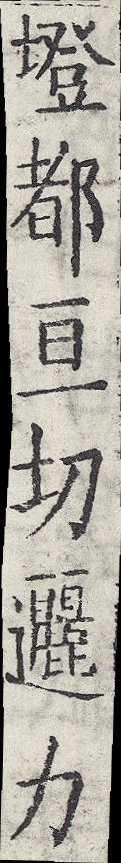墱都亘切邐力
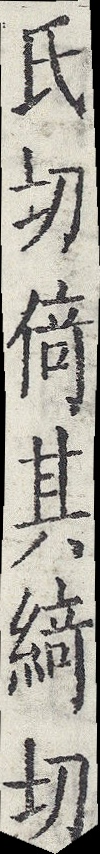氏切倚其綺切
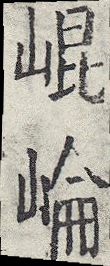崐崘
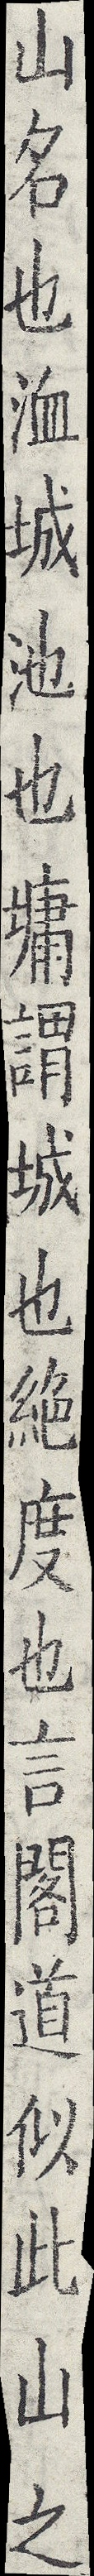山名也洫城池也墉謂城也絕度也言閣道似此山之
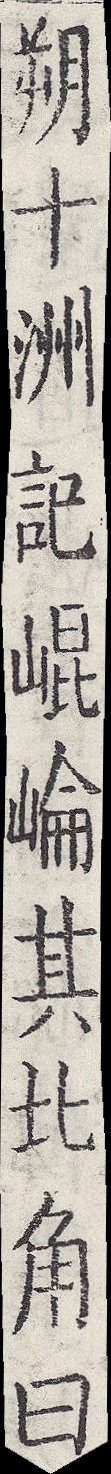朔十洲記崐崘其北角曰
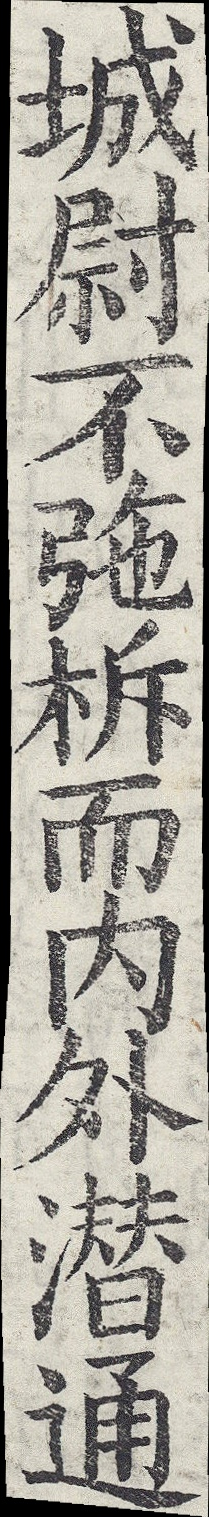城尉不㢮柝而內外潛通
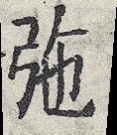㢮
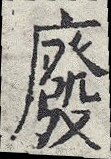廢
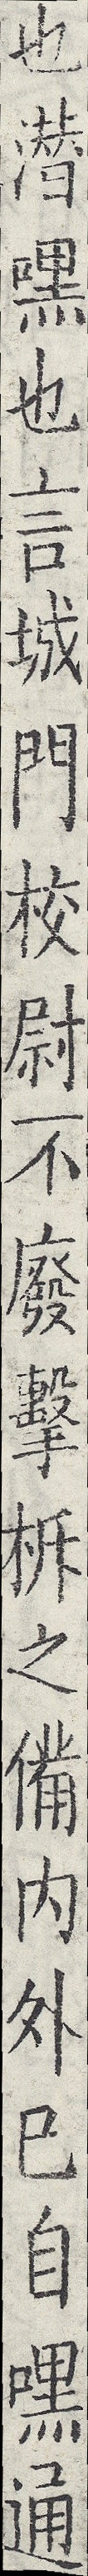也潛嘿也言城門校尉不廢擊柝之備內外已自嘿通
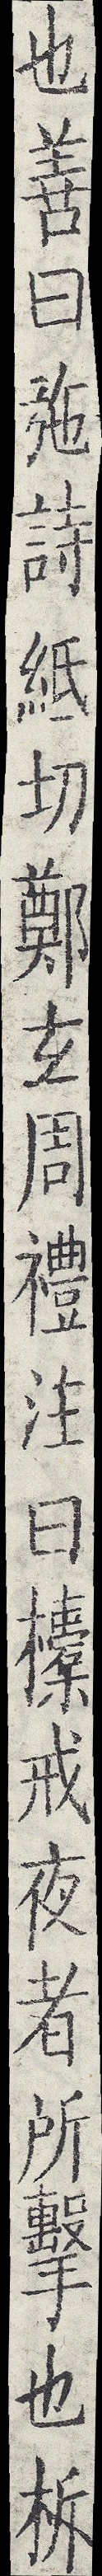也善曰㢮詩紙切鄭玄周禮注曰柝戒夜者所擊也柝
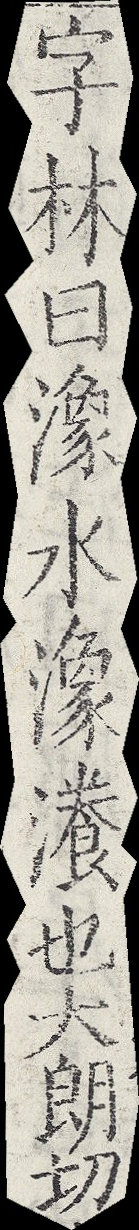字林曰潒水潒瀁也大朗切
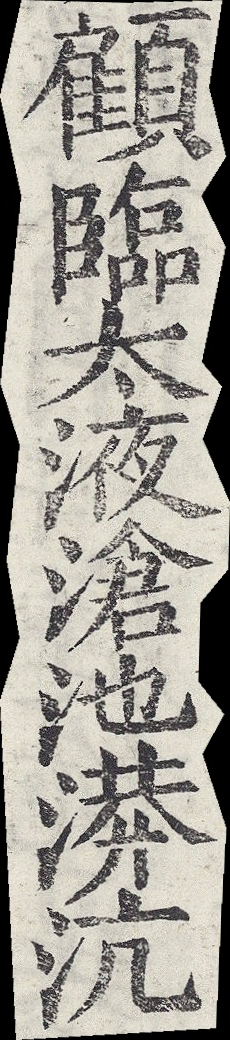顧臨太液滄池漭沆
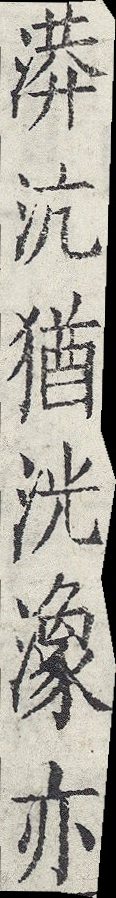漭沆猶洸潒亦
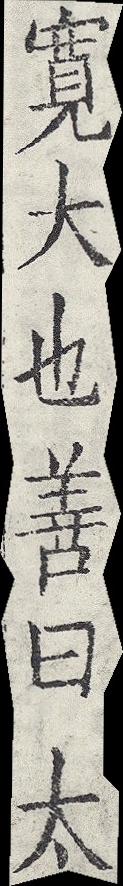寬大也善曰太
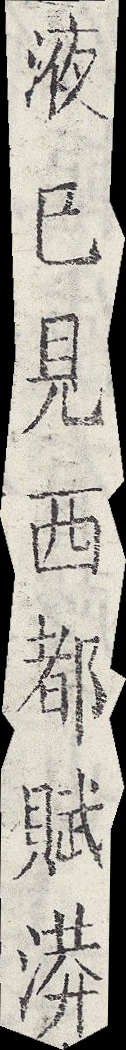液已見西都賦漭
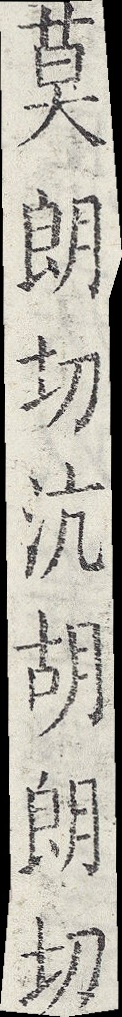莫朗切沆胡朗切
